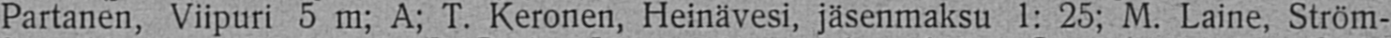Partanen, Viipuri 5 m; A; T. Keronen, Heinävesi, jäsenmaksu 1: 25; M. Laine, Ström-
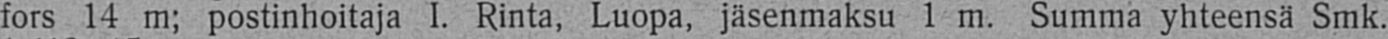fors 14 m; postinhoitaja I. Rinta, Luopa, jäsenmaksu 1 m. Summa yhteensä Smk.
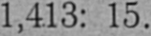1,413: 15.
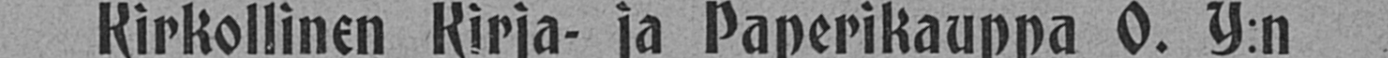Kirkollinen Kirja- ja Paperikauppa O. Y:n
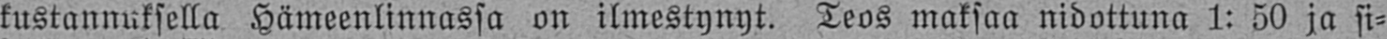kustannuksella Hämeenlinnassa on ilmestynyt. Teos maksaa nidottuna 1: 50 ja si-
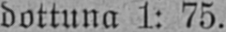dottuna 1: 75.
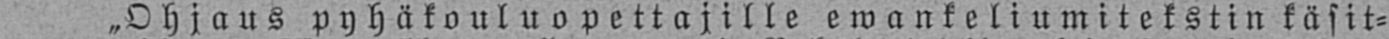„Ohjaus pyhäkouluopettajille ewankeliumitekstin käsit-
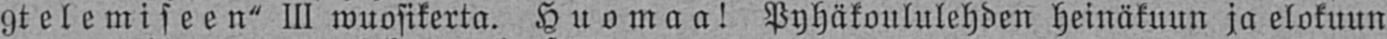telemiseen" III wuosikerta. Huomaa! Pyhäkoululehden heinäkuun ja elokuun
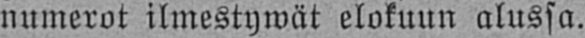numerot ilmestywät elokuun alussa.
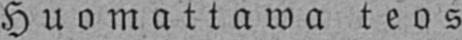Huomattawa teos
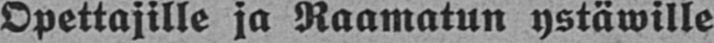Opettajille ja Raamatun ystäwille
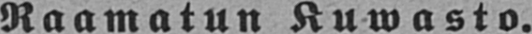Raamatun Kuwasto.
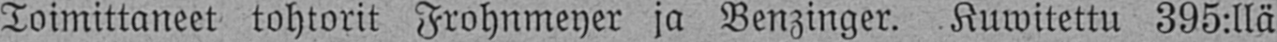Toimittaneet tohtorit Frohnmeyer ja Benzinger. Kuwitettu 395:llä
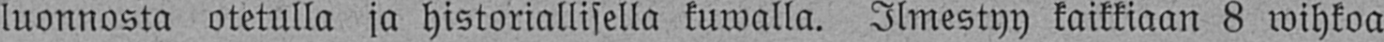luonnosta otetulla ja historiallisella kuwalla. Ilmestyy kaikkiaan 8 wihkoa
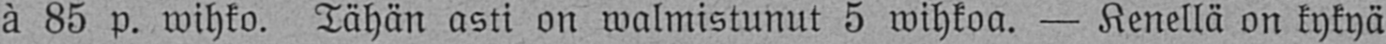à 85 p. wihko. Tähän asti on walmistunut 5 wihkoa. — Kenellä on kykyä
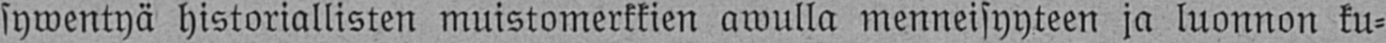sywentyä historiallisten muistomerkkien awulla menneisyyteen ja luonnon ku-
